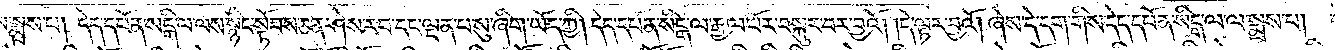གིས་སྨྲས་པ། དེད་དཔོན་སིངྒ་ལ་ལས་སྙིང་སྟོབས་ཅན་ཤེས་རབ་དང་ལྡན་པ་སུ་ཞིག་ཡོད་ཀྱི། དེད་དཔོན་སིངྒ་ལ་རྒྱལ་པོར་བསྐུར་བར་བྱའོ། །དེ་ལྟར་བྱའོ། །ཞེས་དེ་དག་གིས་དེད་དཔོན་སིངྒ་ལ་ལ་སྨྲས་པ། དེད་
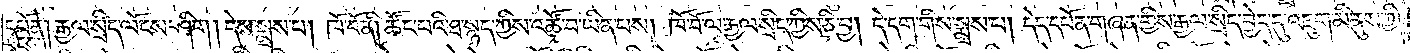དཔོན། རྒྱལ་སྲིད་ལོངས་ཤིག །དེས་སྨྲས་པ། ཁོ་བོ་ནི། ཚོང་པའི་ཐ་སྙད་ཀྱིས་འཚོ་བ་ཡིན་པས། ཁོ་བོ་ལ་རྒྱལ་སྲིད་ཀྱིས་ཅི་བྱ། དེ་དག་གིས་སྨྲས་པ། དེད་དཔོན་གཞན་གྱིས་རྒྱལ་སྲིད་བྱེད་དུ་འཇུག་མི་ནུས་ཀྱི་
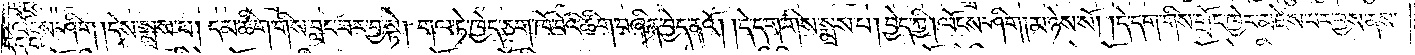ལོངས་ཤིག །དེས་སྨྲས་པ། དམ་ཚིག་གིས་བླང་བར་བྱ་སྟེ། གལ་ཏེ་ཁྱེད་ཅག་ཁོ་བོའི་ཚིག་བཞིན་བྱེད་ནའོ། །དེ་དག་གིས་སྨྲས་པ། བྱེད་ཀྱི། ལོངས་ཤིག། མ་ཉེས་སོ། །དེ་དག་གིས་གྲོང་ཁྱེར་མཛེས་པར་བྱས་ནས་
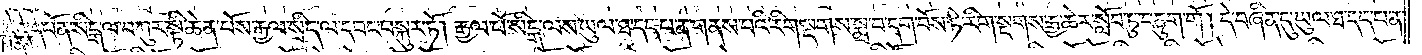དེད་དཔོན་སིངྒ་ལ་བཀུར་སྟི་ཆེན་པོས་རྒྱལ་སྲིད་ལ་དབང་བསྐུར་ཏོ། རྒྱལ་པོ་སིངྒ་ལས་ཡུལ་ཐ་དད་པ་ན་གནས་པའི་རིག་སྔགས་སྨྲ་བ་དག་བོས་ཏེ་རིག་སྔགས་རྒྱ་ཆེར་སློབ་ཏུ་བཅུག་གོ། དེ་བཞིན་དུ་ཡུལ་ཐ་དད་པ་ན་
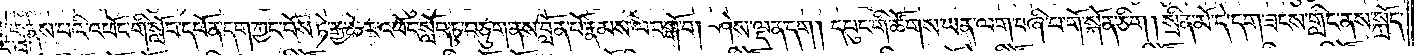གནས་པའི་འཕོང་གི་སློབ་དཔོན་དག་ཀྱང་པོས་ཏེ་རྒྱ་ཆེར་འཕོང་སློབ་ཏུ་བཅུག་ནས་བློན་པོ་རྣམས་ལ་བསྒོ་བ། ཤེས་ལྡན་དག །དཔུང་གི་ཚོགས་ཡན་ལག་བཞི་པ་གོ་སྐོན་ཅིག །སྲིན་མོ་དེ་དག་ཟངས་གླིང་ནས་སྐྲོད་
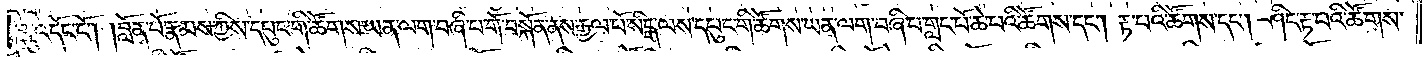དུ་འདོང་ངོ༌། །བློན་པོ་རྣམས་ཀྱིས་དཔུང་གི་ཚོགས་ཡན་ལག་བཞི་པ་གོ་བསྐོན་ནས་རྒྱལ་པོ་སིངྒ་ལས་དཔུང་གི་ཚོགས་ཡན་ལག་བཞི་པ་གླང་པོ་ཆེ་པའི་ཚོགས་དང༌། རྟ་པའི་ཚོགས་དང༌། ཤིང་རྟ་བའི་ཚོགས་
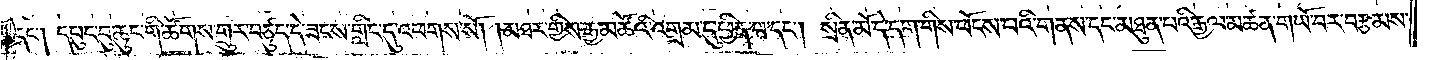དང༌། དཔུང་བུ་ཆུང་གི་ཚོགས་གྲུར་བཙུད་དེ་ཟངས་གླིང་དུ་འཕགས་སོ། །མཐར་གྱིས་རྒྱ་མཚོའི་འགྲམ་དུ་ཕྱིན་པ་དང༌། སྲིན་མོ་དེ་དག་གིས་ཕོངས་པའི་གནས་དང་མཐུན་པའི་རྒྱལ་མཚན་གཡོ་བར་བརྩམས་
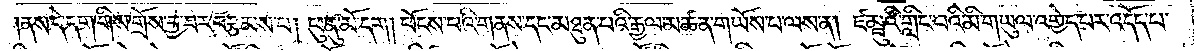ནས་དེ་དག་གིས་གྲོས་བྱ་བར་བརྩམས་པ། ཕུ་ནུ་མོ་དག །ཕོངས་པའི་གནས་དང་མཐུན་པའི་རྒྱལ་མཚན་གཡོས་པ་ལས་ན། ཛམྦུའི་གླིང་པའི་མི་གཡུལ་འགྱེད་པར་འདོད་པ་
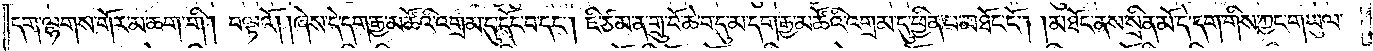དག་ལྷགས་གོར་མ་ཆག་གི། བལྟའོ། །ཞེས་དེ་དག་རྒྱ་མཚོའི་འགྲམ་དུ་དོང་བ་དང༌། ཇི་ཙམ་ན་གྲུ་བོ་ཆེ་བ་དུ་མ་དག་རྒྱ་མཚོའི་འགྲམ་དུ་ཕྱིན་པ་མཐོང་ངོ༌། །མཐོང་ནས་སྲིན་མོ་དེ་དག་གིས་ཀྱང་གཡུལ་
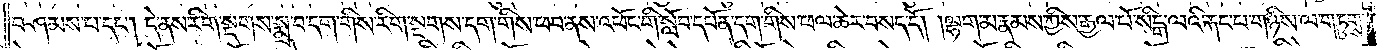བཤམས་པ་དང༌། དེ་ནས་རིག་སྔགས་སྨྲ་བ་དག་གིས་རིག་སྔགས་དག་གིས་ཕབ་ནས་འཕོང་གི་སློབ་དཔོན་དག་གིས་ཕལ་ཆེར་བསད་དོ། །ལྷག་མ་རྣམས་ཀྱིས་རྒྱལ་པོ་སིངྒ་ལའི་རྐང་པ་གཉིས་ལ་གཏུགས་
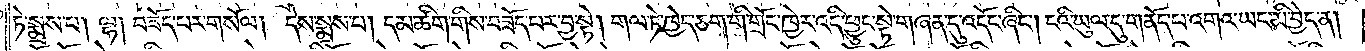ཏེ་སྨྲས་པ། ལྷ། བཟོད་པར་གསོལ། དེས་སྨྲས་པ། དམ་ཚིག་གིས་བཟོད་པར་བྱ་སྟེ། གལ་ཏེ་ཁྱེད་ཅག་གི་གྲོང་ཁྱེར་འདི་ཕྱུང་སྟེ་གཞན་དུ་འདོང་ཞིང༌། ངའི་ཡུལ་དུ་གནོད་པ་འགའ་ཡང་མི་བྱེད་ན།
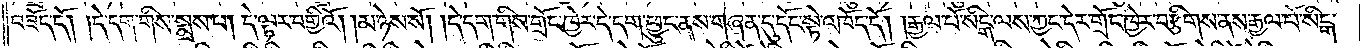བཟོད་དོ། །དེ་དག་གིས་སྨྲས་པ། དེ་ལྟར་བགྱིའོ། །མཉེས་སོ། །དེ་དག་གིས་གྲོང་ཁྱེར་དེ་དག་ཕྱུང་ནས་གཞན་དུ་དོང་སྟེ་འཁོད་དོ། །རྒྱལ་པོ་སིངྒ་ལས་ཀྱང་དེར་གྲོང་ཁྱེར་བརྩིགས་ནས་རྒྱལ་པོ་སིངྒ་
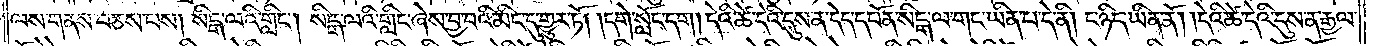ལས་གནས་བཅས་པས། སིངྒ་ལའི་གླིང༌། སིངྒ་ལའི་གླིང་ཞེས་བྱ་བའི་མིང་དུ་གྱུར་ཏོ། །དགེ་སློང་དག། དེའི་ཚེ་དེའི་དུས་ན་དེད་དཔོན་སིངྒ་ལ་གང་ཡིན་པ་དེ་ནི། ང་ཉིད་ཡིན་ནོ། །དེའི་ཚེ་དེའི་དུས་ན་རྒྱལ་
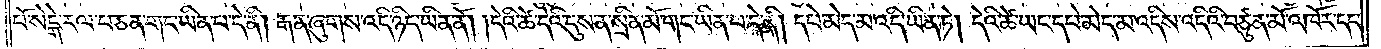པོ་སེངྒེ་རལ་པ་ཅན་གང་ཡིན་པ་དེ་ནི། རྒན་ཞུགས་འདི་ཉིད་ཡིན་ནོ། །དེའི་ཚེ་དེའི་དུས་ན་སྲིན་མོ་གང་ཡིན་པ་དེ་ནི། དཔེ་མེད་མ་འདི་ཡིན་ཏེ། དེའི་ཚེ་ཡང་དཔེ་མེད་མ་འདིས་འདིའི་བཙུན་མོ་འཁོར་དང་
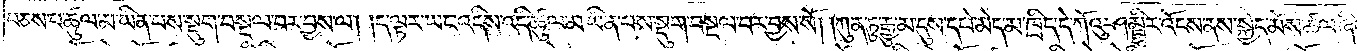བཅས་པ་ཚུལ་མ་ཡིན་པས་སྡུག་བསྔལ་བར་བྱས་ལ། ད་ལྟར་ཡང་འདིས་འདི་ཚུལ་མ་ཡིན་པས་སྡུག་བསྔལ་བར་བྱས་སོ། །ཀུན་ཏུ་རྒྱུ་མ་དུས་དཔེ་མེད་མ་ཁྲིད་དེ་ཀོའུ་ཤམྦྷིར་འོངས་ནས་སྐྱེད་མོས་ཚལ་ཞིག་
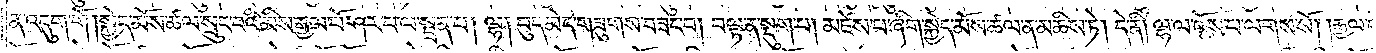ན་འདུག་གོ། །སྐྱེད་མོས་ཚལ་སྲུང་བའི་མིས་རྒྱལ་པོ་ཤར་པ་ལ་སྦྲན་པ། ལྷ། བུད་མེད་གཟུགས་བཟང་བ། བལྟ་ན་སྡུག་པ། མཛེས་པ་ཞིག་སྐྱེད་མོས་ཚལ་ན་མཆིས་ཏེ། དེ་ནི། ལྷ་ལ་འོས་པ་ལགས་སོ། །རྒྱལ་པོས་
